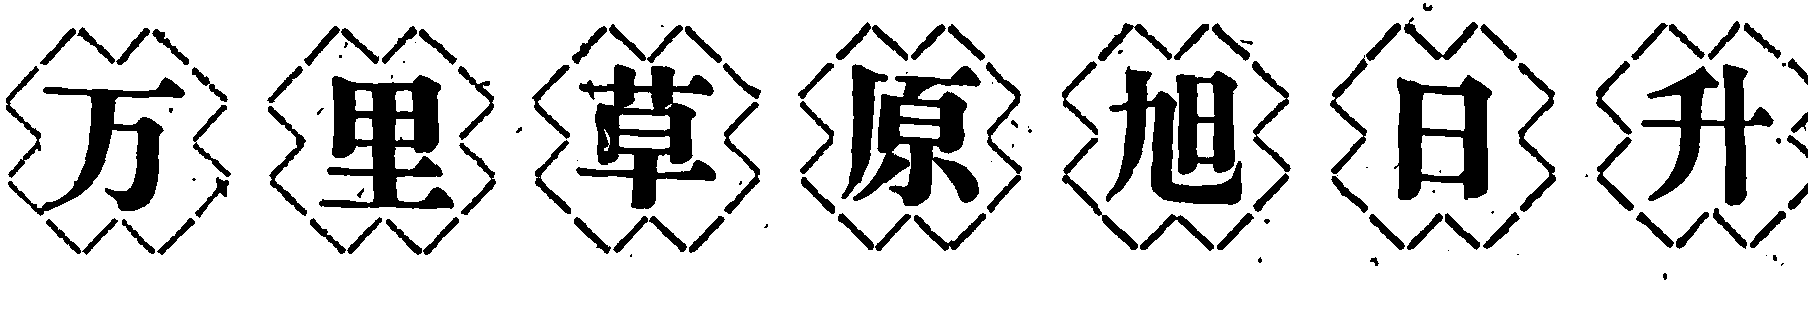万 里 草 原 旭 日 升
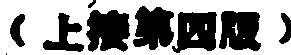（上接第四版）
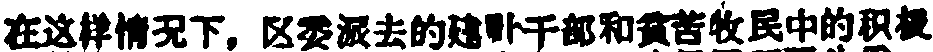在这样情況下，区委派去的建社干部和貧苦牧民中的积极
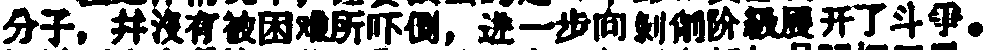分子，并沒有被困难所吓倒，进一步向剝削阶級展开了斗爭。
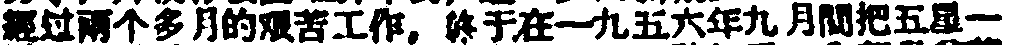經过兩个多月的艰苦工作，终于在一九五六年九月間把五星一
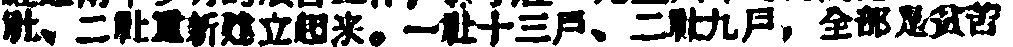社、二社重新建立起来。一社十三戶、二社九戶，全部是貧苦
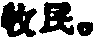牧民。
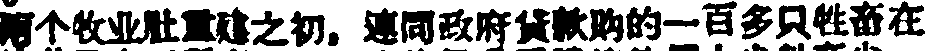兩个牧业社重建之初，連同政府貸款购的一百多只牲畜在
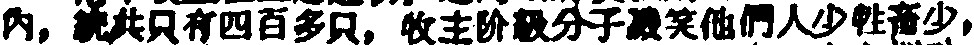內，統共只有四百多只，牧主阶級分子譏笑他們人少牲畜少，
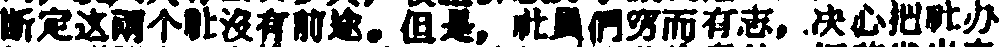断定这兩个社沒有前途。但是，社員們穷而有志，決心把社办
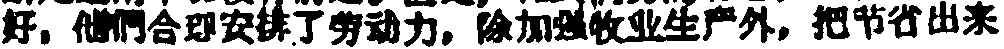好，他們合理安排了劳动力，除加強牧业生产外，把节省出来
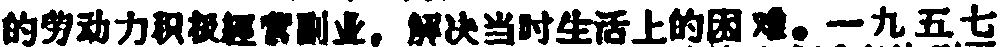的劳动力积极經营副业，解决当时生活上的困难。一九五七
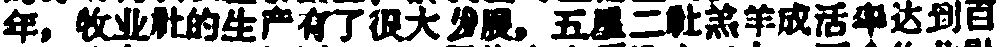年，牧业社的生产有了很大发展，五星二社羔羊成活率达到百
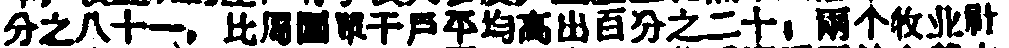分之八十一，比周围單干戶平均高出百分之二十，兩个牧业社
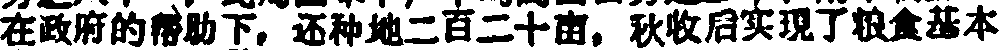在政府的帮助下，还种地二百二十亩，秋牧后实現了粮食基本
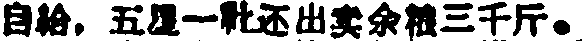自給，五星一社还出卖余粮三千斤。
